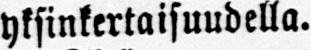yksinkertaisuudella.
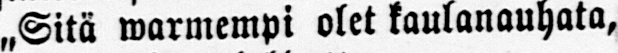„Sitä warmempi olet kaulanauhata,
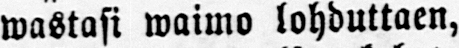wastasi waimo lohduttaen,
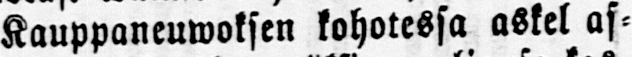Kauppaneuwoksen kohotessa askel as-
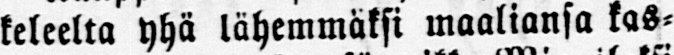keleelta yhä lähemmäksi maaliansa kas-
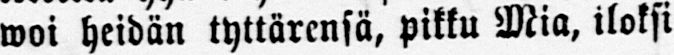woi heidän tyttärensä, pikku Mia, iloksi
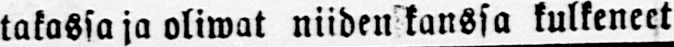takassa ja oliwat niiden kanssa kulkeneet
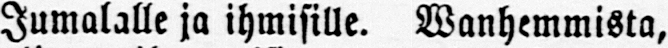Jumalalle ja ihmisille. Wanhemmista,
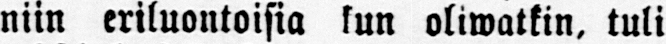niin eriluontoisia kun oliwatkin, tuli
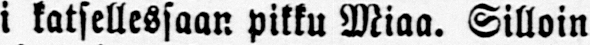yksi katsellessaan pikku Miaa. Silloin
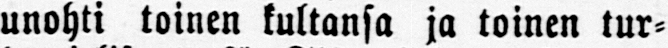unohti toinen kultansa ja toinen tur-
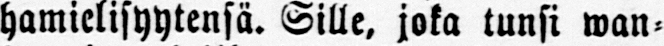hamielisyytensä. Sille, joka tunsi wan-
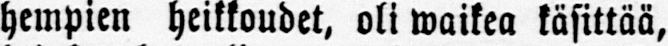hempien heikkoudet, oli waikea käsittää,
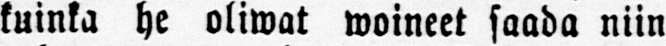kuinka he oliwat woineet saada niin
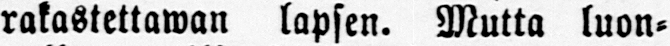rakastettawan lapsen. Mutta luon-
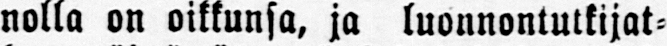nolla on oikkunsa, ja luonnontutkijat-
